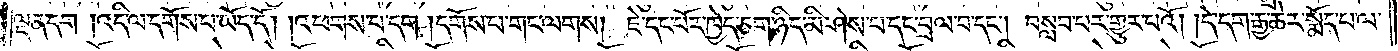ལྡན་དག །འདི་ལ་དགོས་པ་ཡོད་དོ། །འཕགས་པ་དག །དགོས་པ་གང་ལགས། ཇེ་དང་པོར་ཁྱེད་ཅག་ཉིད་མི་ཤེས་པ་དང་བྲལ་བ་དང༌། བསླབ་པར་གྱུར་པའོ། །དེ་དག་རྒྱ་ཆེར་སྨོད་པ་ལ་
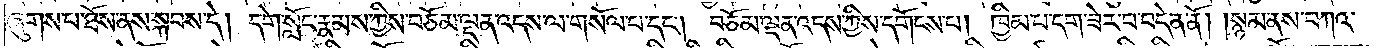ཞུགས་པ་ཐོས་ནས་སྐབས་དེ། དགེ་སློང་རྣམས་ཀྱིས་བཅོམ་ལྡན་འདས་ལ་གསོལ་པ་དང༌། བཅོམ་ལྡན་འདས་ཀྱིས་དགོངས་པ། ཁྱིམ་པ་དག་ཟེར་བ་བདེན་ནོ། །སྙམ་ནས་བཀའ་
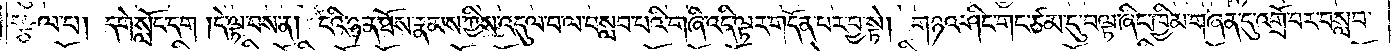སྩལ་པ། དགེ་སློང་དག །དེ་ལྟ་བས་ན། ངའི་ཉན་ཐོས་རྣམས་ཀྱིས་འདུལ་བ་ལ་བསླབ་པའི་གཞི་འདི་ལྟར་གདོན་པར་བྱ་སྟེ། གཉའ་ཤིང་གང་ཙམ་དུ་བལྟ་ཞིང་ཁྱིམ་གཞན་དུ་འགྲོ་བར་བསླབ་
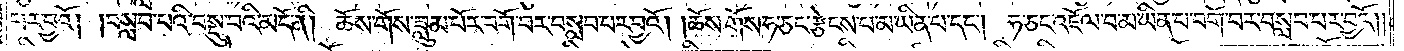པར་བྱའོ། །བསླབ་པའི་བསྡུ་བའི་མདོ་ནི། ཆོས་གོས་ཟླུམ་པོར་བགོ་བར་བསླབ་པར་བྱའོ། །ཆོས་གོས་ཧ་ཅང་རྩེངས་པ་མ་ཡིན་པ་དང༌། ཧ་ཅང་འཇོལ་བ་མ་ཡིན་པ་བགོ་བར་བསླབ་པར་བྱའོ། །
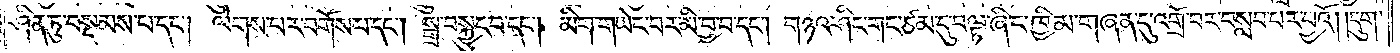ཤིན་ཏུ་བསྡམས་པ་དང༌། ལེགས་པར་བགོས་པ་དང༌། སྒྲ་བསྐྱུང་བ་དང༌། མིག་གཡེང་བར་མི་བྱ་བ་དང༌། གཉའ་ཤིང་གང་ཙམ་དུ་བལྟ་ཞིང་ཁྱིམ་གཞན་དུ་འགྲོ་བར་བསླབ་པར་བྱའོ། །དྲུག་
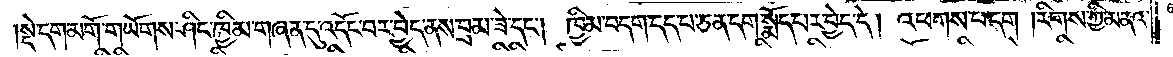སྡེ་དག་མགོ་གཡོགས་ཤིང་ཁྱིམ་གཞན་དུ་འདོང་བར་བྱེད་ནས་བྲམ་ཟེ་དང༌། ཁྱིམ་བདག་དད་པ་ཅན་དག་སྨོད་པར་བྱེད་དེ། འཕགས་པ་དག །རིགས་ཀྱི་མནའ་
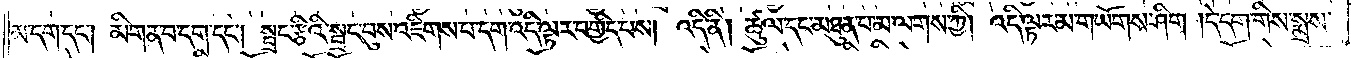མ་དག་དང༌། མིག་ན་བ་དག་དང༌། སྦྲང་རྩིའི་སྦྲང་བུས་འཇིགས་པ་དག་འདི་ལྟར་བགྱིད་པས། འདི་ནི། ཚུལ་དང་མཐུན་པ་མ་ལགས་ཀྱི། འདི་ལྟར་མ་གཡོགས་ཤིག །དེ་དག་གིས་སྨྲས་
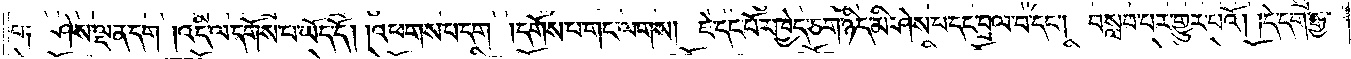པ༑ ཤེས་ལྡན་དག །འདི་ལ་དགོས་པ་ཡོད་དོ། །འཕགས་པ་དག །དགོས་པ་གང་ལགས། ཇེ་དང་པོར་ཁྱེད་ཅག་ཉིད་མི་ཤེས་པ་དང་བྲལ་བ་དང༌། བསླབ་པར་གྱུར་པའོ། །དེ་དག་རྒྱ་
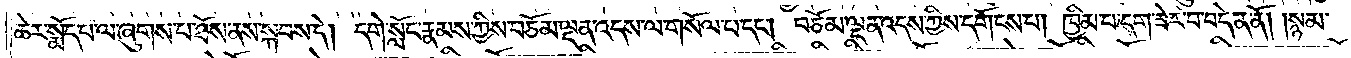ཆེར་སྨོད་པ་ལ་ཞུགས་པ་ཐོས་ནས་སྐབས་དེ། དགེ་སློང་རྣམས་ཀྱིས་བཅོམ་ལྡན་འདས་ལ་གསོལ་པ་དང༌། བཅོམ་ལྡན་འདས་ཀྱིས་དགོངས་པ། ཁྱིམ་པ་དག་ཟེར་བ་བདེན་ནོ། །སྙམ་
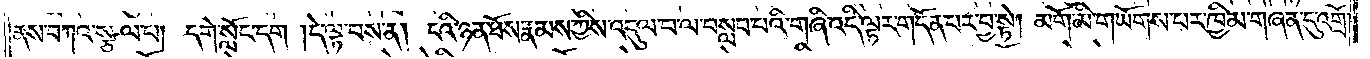ནས་བཀའ་སྩལ་པ། དགེ་སློང་དག །དེ་ལྟ་བས་ན། ངའི་ཉན་ཐོས་རྣམས་ཀྱིས་འདུལ་བ་ལ་བསླབ་པའི་གཞི་འདི་ལྟར་གདོན་པར་བྱ་སྟེ། མགོ་མི་གཡོགས་པར་ཁྱིམ་གཞན་དུ་འགྲོ་
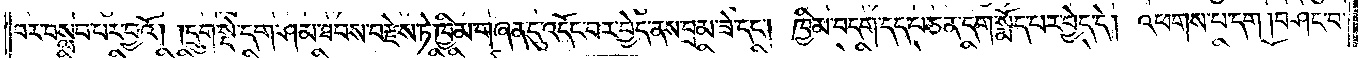བར་བསླབ་པར་བྱའོ། །དྲུག་སྡེ་དག་ཤམ་ཐབས་བརྫེས་ཏེ་ཁྱིམ་གཞན་དུ་འདོང་བར་བྱེད་ནས་བྲམ་ཟེ་དང༌། ཁྱིམ་བདག་དད་པ་ཅན་དག་སྨོད་པར་བྱེད་དེ། འཕགས་པ་དག །བཤང་བ་
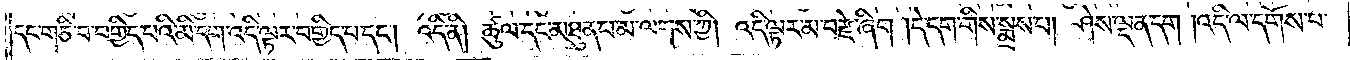དང་གཅི་བ་བགྱིད་པའི་མི་དག་འདི་ལྟར་བགྱིད་པ་དང༌། འདི་ནི། ཚུལ་དང་མཐུན་པ་མ་ལགས་ཀྱི། འདི་ལྟར་མ་བརྫེ་ཞིག །དེ་དག་གིས་སྨྲས་པ། ཤེས་ལྡན་དག །འདི་ལ་དགོས་པ་
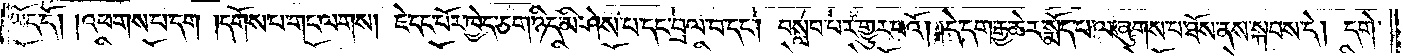ཡོད་དོ། །འཕགས་པ་དག །དགོས་པ་གང་ལགས། ཇེ་དང་པོར་ཁྱེད་ཅག་ཉིད་མི་ཤེས་པ་དང་བྲལ་བ་དང༌། བསླབ་པར་གྱུར་པའོ། །དེ་དག་རྒྱ་ཆེར་སྨོད་པ་ལ་ཞུགས་པ་ཐོས་ནས་སྐབས་དེ། དགེ་
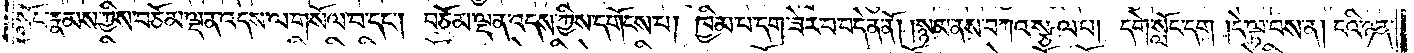སློང་རྣམས་ཀྱིས་བཅོམ་ལྡན་འདས་ལ་གསོལ་པ་དང༌། བཅོམ་ལྡན་འདས་ཀྱིས་དགོངས་པ། ཁྱིམ་པ་དག་ཟེར་བ་བདེན་ནོ། །སྙམ་ནས་བཀའ་སྩལ་པ། དགེ་སློང་དག །དེ་ལྟ་བས་ན། ངའི་ཉན་
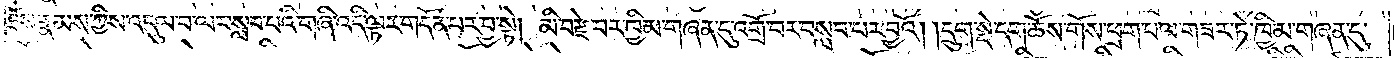ཐོས་རྣམས་ཀྱིས་འདུལ་བ་ལ་བསླབ་པའི་གཞི་འདི་ལྟར་གདོན་པར་བྱ་སྟེ། མི་བརྫེ་བར་ཁྱིམ་གཞན་དུ་འགྲོ་བར་བསླབ་པར་བྱའོ། །དྲུག་སྡེ་དག་ཆོས་གོས་ཕྲག་པ་ལ་གཟར་ཏེ་ཁྱིམ་གཞན་དུ་
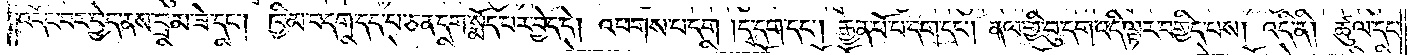འདོང་བར་བྱེད་ནས་བྲམ་ཟེ་དང༌། ཁྱིམ་བདག་དད་པ་ཅན་དག་སྨོད་པར་བྱེད་དེ། འཕགས་པ་དག །དྭ་དག་དང༌། རྒྱན་པོ་པ་དག་དང༌། ནལ་གྱི་བུ་དག་འདི་ལྟར་བགྱིད་པས། འདི་ནི། ཚུལ་དང་
